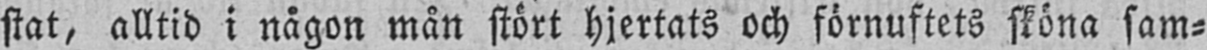stat, alltid i någon mån stört hjertats och förnuftets sköna sam-
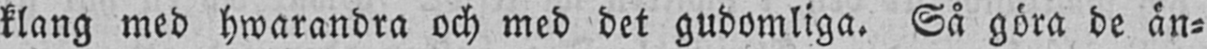klang med hwarandra och med det gudomliga. Så göra de än-
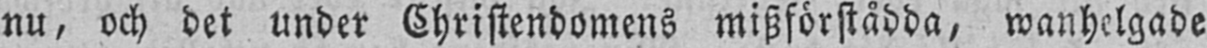nu, och det under Christendomens miszförstådda, wanhelgade
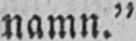namn."
